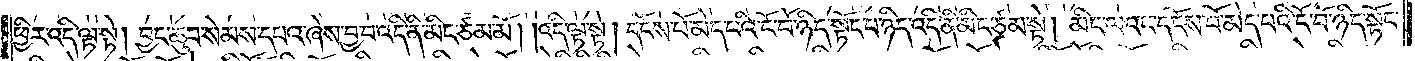ཕྱིར་འདི་ལྟ་སྟེ། བྱང་ཆུབ་སེམས་དཔའ་ཞེས་བྱ་བ་འདི་ནི་མིང་ཙམ་མོ། །འདི་ལྟ་སྟེ། དངོས་པོ་མེད་པའི་ངོ་བོ་ཉིད་སྟོང་པ་ཉིད་འདི་ནི་མིང་ཙམ་སྟེ། མིང་ལའང་དངོས་པོ་མེད་པའི་ངོ་བོ་ཉིད་སྟོང་
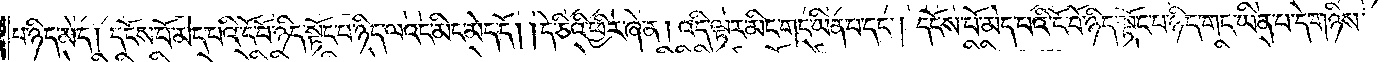པ་ཉིད་མེད། དངོས་པོ་མེད་པའི་ངོ་བོ་ཉིད་སྟོང་པ་ཉིད་ལའང་མིང་མེད་དོ། །དེ་ཅིའི་ཕྱིར་ཞེ་ན། འདི་ལྟར་མིང་གང་ཡིན་པ་དང༌། དངོས་པོ་མེད་པའི་ངོ་བོ་ཉིད་སྟོང་པ་ཉིད་གང་ཡིན་པ་དེ་གཉིས་
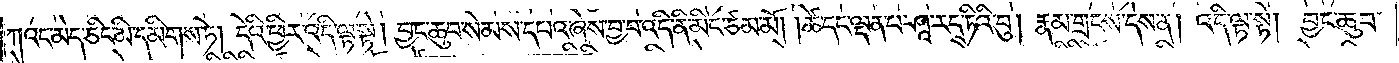ཀའང་མེད་ཅིང་མི་དམིགས་ཏེ། དེའི་ཕྱིར་འདི་ལྟ་སྟེ། བྱང་ཆུབ་སེམས་དཔའ་ཞེས་བྱ་བ་འདི་ནི་མིང་ཙམ་མོ། །ཚེ་དང་ལྡན་པ་ཤཱ་ར་དྭ་ཏིའི་བུ། རྣམ་གྲངས་དེས་ན། འདི་ལྟ་སྟེ། བྱང་ཆུབ་
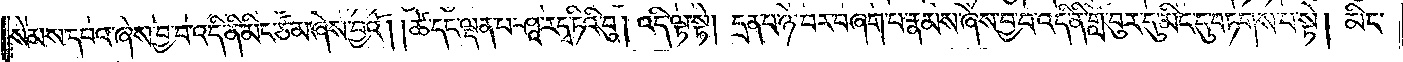སེམས་དཔའ་ཞེས་བྱ་བ་འདི་ནི་མིང་ཙམ་ཞེས་བྱའོ། །ཚེ་དང་ལྡན་པ་ཤཱ་ར་དྭ་ཏིའི་བུ། འདི་ལྟ་སྟེ། དྲན་པ་ཉེ་བར་བཞག་པ་རྣམས་ཞེས་བྱ་བ་འདི་ནི་གློ་བུར་དུ་མིང་དུ་བཏགས་པ་སྟེ། མིང་
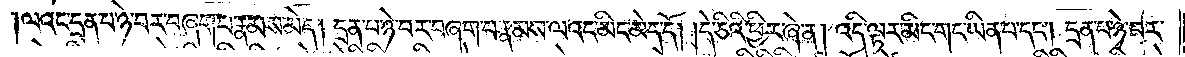ལའང་དྲན་པ་ཉེ་བར་བཞག་པ་རྣམས་མེད། དྲན་པ་ཉེ་བར་བཞག་པ་རྣམས་ལའང་མིང་མེད་དོ། །དེ་ཅིའི་ཕྱིར་ཞེ་ན། འདི་ལྟར་མིང་གང་ཡིན་པ་དང༌། དྲན་པ་ཉེ་བར་
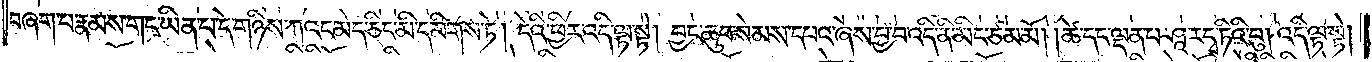བཞག་པ་རྣམས་གང་ཡིན་པ་དེ་གཉིས་ཀའང་མེད་ཅིང་མི་དམིགས་ཏེ། དེའི་ཕྱིར་འདི་ལྟ་སྟེ། བྱང་ཆུབ་སེམས་དཔའ་ཞེས་བྱ་བ་འདི་ནི་མིང་ཙམ་མོ། །ཚེ་དང་ལྡན་པ་ཤཱ་ར་དྭ་ཏིའི་བུ། འདི་ལྟ་སྟེ།
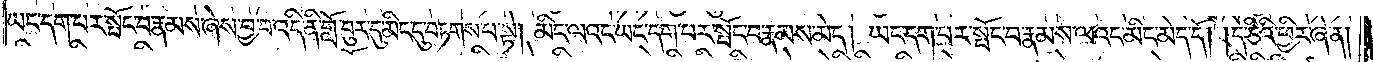ཡང་དག་པར་སྤོང་བ་རྣམས་ཞེས་བྱ་བ་འདི་ནི་གློ་བུར་དུ་མིང་དུ་བཏགས་པ་སྟེ། མིང་ལའང་ཡང་དག་པར་སྤོང་བ་རྣམས་མེད། ཡང་དག་པར་སྤོང་བ་རྣམས་ལའང་མིང་མེད་དོ། །དེ་ཅིའི་ཕྱིར་ཞེ་ན།
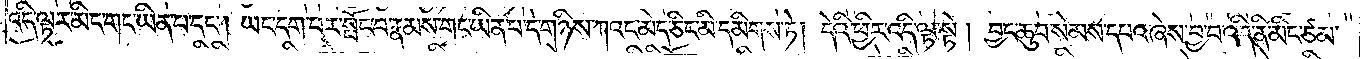འདི་ལྟར་མིང་གང་ཡིན་པ་དང༌། ཡང་དག་པར་སྦོང་བ་རྣམས་གང་ཡིན་པ་དེ་གཉིས་ཀའང་མེད་ཅིང་མི་དམིགས་ཏེ། དེའི་ཕྱིར་འདི་ལྟ་སྟེ། བྱང་ཆུབ་སེམས་དཔའ་ཞེས་བྱ་བ་འདི་ནི་མིང་ཙམ་
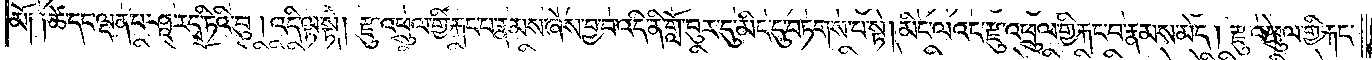མོ། །ཚེ་དང་ལྡན་པ་ཤཱ་ར་དྭ་ཏིའི་བུ། འདི་ལྟ་སྟེ། རྫུ་འཕྲུལ་གྱི་རྐང་པ་རྣམས་ཞེས་བྱ་བ་འདི་ནི་གློ་བུར་དུ་མིང་དུ་བཏགས་པ་སྟེ། མིང་ལའང་རྫུ་འཕྲུལ་གྱི་རྐང་པ་རྣམས་མེད། རྫུ་འཕྲུལ་གྱི་རྐང་
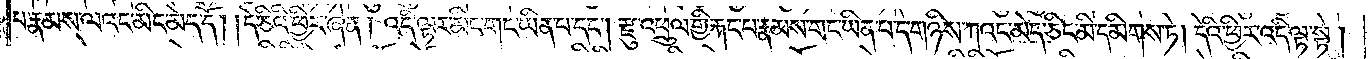པ་རྣམས་ལའང་མིང་མེད་དོ། །དེ་ཅིའི་ཕྱིར་ཞེ་ན། འདི་ལྟར་མིང་གང་ཡིན་པ་དང༌། རྫུ་འཕྲུལ་གྱི་རྐང་པ་རྣམས་གང་ཡིན་པ་དེ་གཉིས་ཀའང་མེད་ཅིང་མི་དམིགས་ཏེ། དེའི་ཕྱིར་འདི་ལྟ་སྟེ།
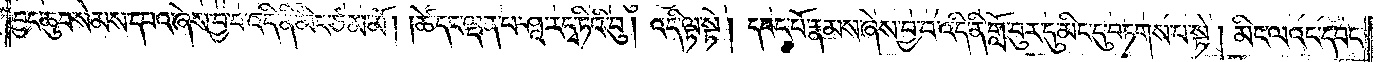བྱང་ཆུབ་སེམས་དཔའ་ཞེས་བྱ་བ་འདི་ནི་མིང་ཙམ་མོ། །ཚེ་དང་ལྡན་པ་ཤཱ་ར་དྭ་ཏིའི་བུ། འདི་ལྟ་སྟེ། དབང་པོ་རྣམས་ཞེས་བྱ་བ་འདི་ནི་གློ་བུར་དུ་མིང་དུ་བཏགས་པ་སྟེ། མིང་ལའང་དབང་
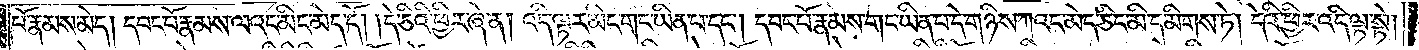པོ་རྣམས་མེད། དབང་པོ་རྣམས་ལའང་མིང་མེད་དོ། །དེ་ཅིའི་ཕྱིར་ཞེ་ན། འདི་ལྟར་མིང་གང་ཡིན་པ་དང༌། དབང་པོ་རྣམས་གང་ཡིན་པ་དེ་གཉིས་ཀའང་མེད་ཅིང་མི་དམིགས་ཏེ། དེའི་ཕྱིར་འདི་ལྟ་སྟེ།
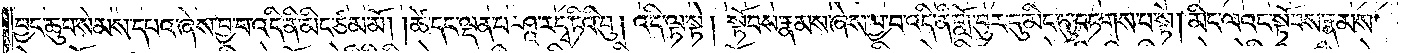བྱང་ཆུབ་སེམས་དཔའ་ཞེས་བྱ་བ་འདི་ནི་མིང་ཙམ་མོ། །ཚེ་དང་ལྡན་པ་ཤཱ་ར་དྭ་ཏིའི་བུ། འདི་ལྟ་སྟེ། སྟོབས་རྣམས་ཞེས་བྱ་བ་འདི་ནི་གློ་བུར་དུ་མིང་དུ་བཏགས་པ་སྟེ། མིང་ལའང་སྟོབས་རྣམས་
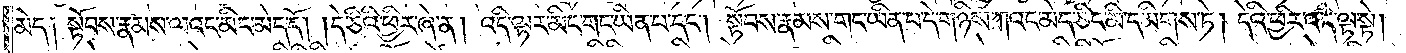མེད། སྟོབས་རྣམས་ལའང་མིང་མེད་དོ། །དེ་ཅིའི་ཕྱིར་ཞེ་ན། འདི་ལྟར་མིང་གང་ཡིན་པ་དང༌། སྟོབས་རྣམས་གང་ཡིན་པ་དེ་གཉིས་ཀའང་མེད་ཅིང་མི་དམིགས་ཏེ། དེའི་ཕྱིར་འདི་ལྟ་སྟེ།
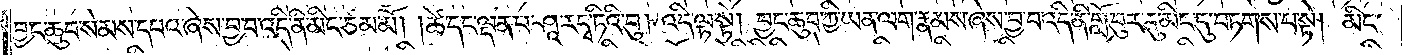བྱང་ཆུབ་སེམས་དཔའ་ཞེས་བྱ་བ་འདི་ནི་མིང་ཙམ་མོ། །ཚེ་དང་ལྡན་པ་ཤཱ་ར་དྭ་ཏིའི་བུ། འདི་ལྟ་སྟེ། བྱང་ཆུབ་ཀྱི་ཡན་ལག་རྣམས་ཞེས་བྱ་བ་འདི་ནི་གློ་བུར་དུ་མིང་དུ་བཏགས་པ་སྟེ། མིང་
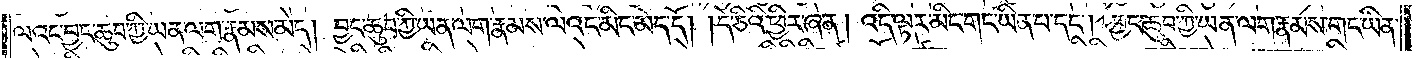ལའང་བྱང་ཆུབ་ཀྱི་ཡན་ལག་རྣམས་མེད། བྱང་ཆུབ་ཀྱི་ཡན་ལག་རྣམས་ལའང་མིང་མེད་དོ། དེ་ཅིའི་ཕྱིར་ཞེ་ན། འདི་ལྟར་མིང་གང་ཡིན་པ་དང༌། བྱང་ཆུབ་ཀྱི་ཡན་ལག་རྣམས་གང་ཡིན་
